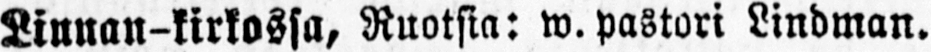Linnan-kirkossa, Ruotsia: w. pastori Lindman.
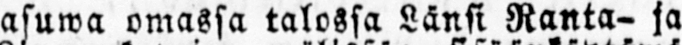asuwa omassa talossa Länsi Ranta- ja
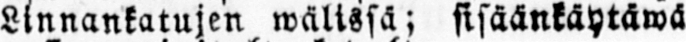Linnankatujen wälissä; sisäänkäytäwä
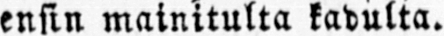ensin mainitulta kadulta.
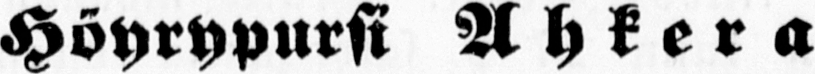Höyrypursi Ahkera
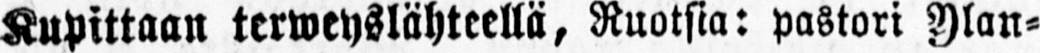Kupittaan terweyslähteellä, Ruotsia: pastori Ylan-
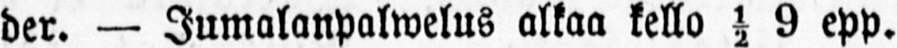der. — Jumalanpalwelus alkaa kello ½ epp.
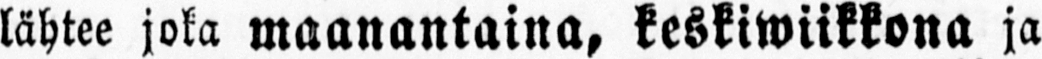lähtee joka maanantaina, keskiwiikkona ja
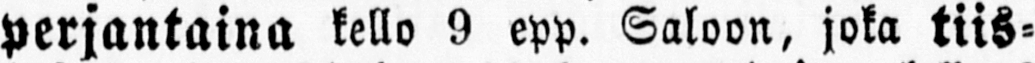perjantaina kello 9 epp. Saloon, joka tiis-
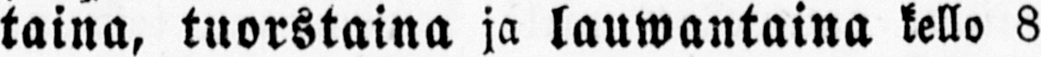taina, tuorstaina ja lauwantaina kello 8
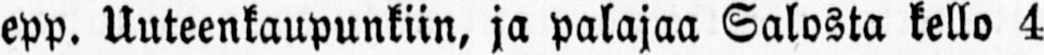epp. Uuteenkaupunkiin, ja palajaa Salosta kello 4
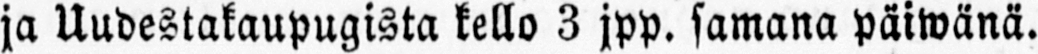ja Uudestakaupugista kello 3 jpp. samana päiwänä.
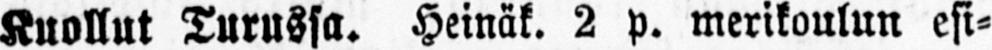Kuollut Turussa. Heinäk. 2 p. merikoulun esi-
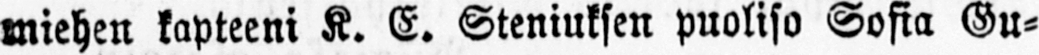miehen kapteeni K. E. Steniuksen puoliso Sofia Gu-
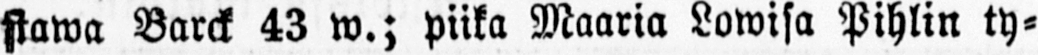stawa Barck 43 w.; piika Maaria Lowisa Pihlin ty-
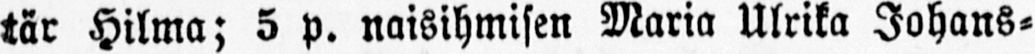tär Hilma; 5 p. naisihmisen Maria Ulrika Johans-
